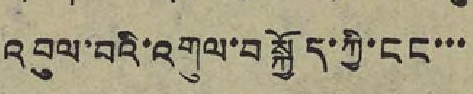འབུལ་བའི་འགུལ་བསྐྱོད་ཀྱི་ངང་་་
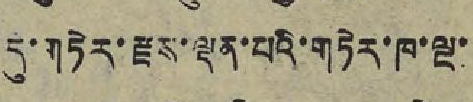དུ་གཏེར་རྫས་ལྡན་པའི་གཏེར་ཁ་ལྔ་
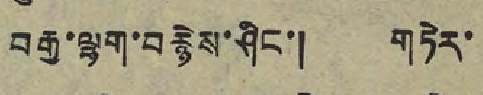བརྒྱ་ལྷག་བརྙེས་ཤིང་། གཏེར་
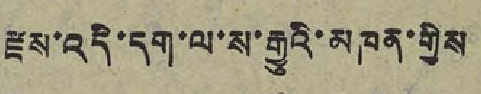རྫས་འདི་དག་ལ་ས་རྒྱུའི་མཁན་གྱིས
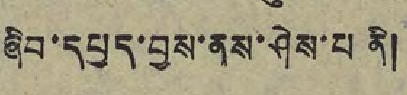ཞིབ་དཔྱད་བྱས་ནས་ཤེས་པ ནི།
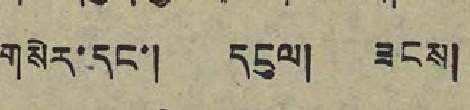གསེར་དང་། དངུལ། ཟངས།
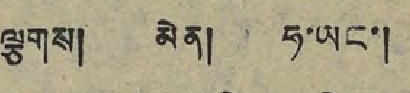ལྕགས། མེན། ཧ་ཡང་།
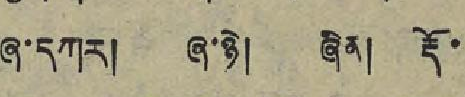ཞ་དཀར། ཞ་ཉེ། ཞིན། རྡོ་
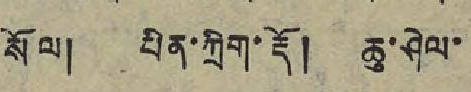སོལ། པིན་ཀྲིག་རྡོ། ཆུ་ཤེལ་
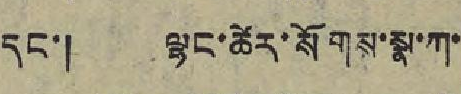དང་། ལྷང་ཚེར་སོགས་སྣ་ཀ་
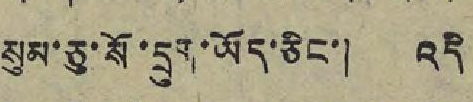སུམ་ཅུ་སོ་དྲུག་ཡོད་ཅིང་། འདི
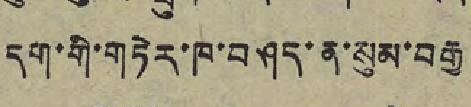དག་གི་གཏེར་ཁ་བཤད་ན་སུམ་བརྒྱ
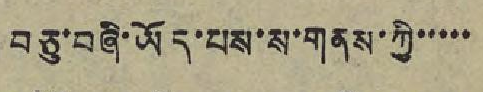བཅུ་བཞི་ཡོད་པས་ས་གནས་ཀྱི་་་་་
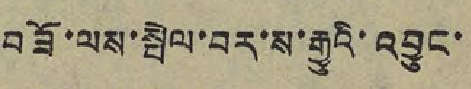བཟོ་ལས་སྤེལ་བར་ས་རྒྱུའི་འབྱུང་
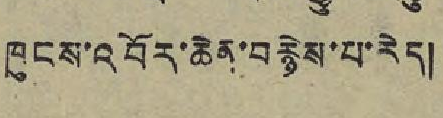ཁུངས་འབོར་ཆེན་བརྙེས་པ་རེད།
